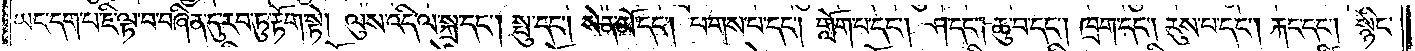ཡང་དག་པ་ཇི་ལྟ་བ་བཞིན་དུ་རབ་ཏུ་རྟོག་སྟེ། ལུས་འདི་ལ་སྐྲ་དང༌། སྤུ་དང༌། སེན་མོ་དང༌། པགས་པ་དང༌། གློག་པ་དང༌། ཤ་དང༌། ཆུ་བ་དང༌། ཁྲག་དང༌། རུས་པ་དང༌། རྐང་དང༌། སྙིང་
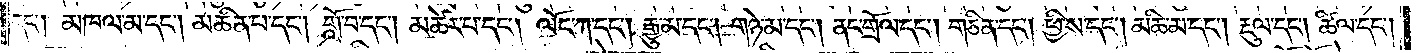དང༌། མཁལ་མ་དང༌། མཆིན་པ་དང༌། གློ་བ་དང༌། མཚེར་པ་དང༌། ལོང་ཀ་དང༌། རྒྱུ་མ་དང༌། གཉེ་མ་དང༌། ནང་གྲོལ་དང༌། གཅིན་དང༌། ཕྱི་ས་དང༌། མཆི་མ་དང༌། རྡུལ་དང༌། ཚིལ་དང༌།
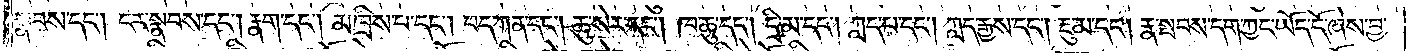སྣབས་དང༌། ངར་སྣབས་དང༌། རྣག་དང༌། མཁྲིས་པ་དང༌། བད་ཀན་དང༌། ཆུ་སེར་དང༌། ཁ་ཆུ་དང༌། དྲི་མ་དང༌། ཀླད་པ་དང༌། ཀླད་རྒྱས་དང༌། རྡུ་མ་དང༌། རྣ་སྤབས་དག་ཀྱང་ཡོད་དོ་ཞེས་བྱ་
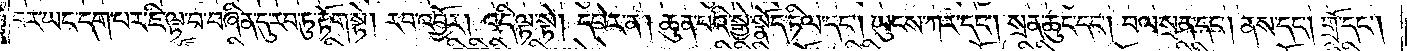བར་ཡང་དག་པར་ཇི་ལྟ་བ་བཞིན་དུ་རབ་ཏུ་རྟོག་སྟེ། རབ་འབྱོར། འདི་ལྟ་སྟེ། དཔེར་ན། ཆུན་པའི་སྒྱེ་སྣོད་ཏིལ་དང༌། ཡུངས་ཀར་དང་སྲན་ཆུང་དང༌། བལ་སྲན་དང༌། ནས་དང༌། གྲོ་དང༌།
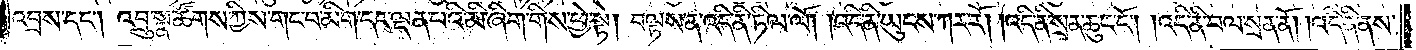འབྲས་དང༌། འབྲུ་སྣ་ཚོགས་ཀྱིས་གང་བ་མིག་དང་ལྡན་པའི་མི་ཞིག་གིས་ཕྱེ་སྟེ། བལྟས་ན་འདི་ནི་ཏིལ་ལོ། །འདི་ནི་ཡུངས་ཀར་རོ། །འདི་ནི་སྲན་ཆུང་ངོ༌། །འདི་ནི་བལ་སྲན་ནོ། །འདི་ནི་ནས་
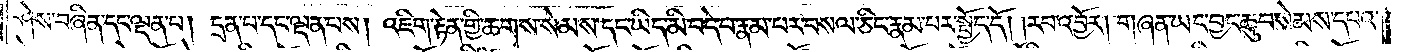ཤེས་བཞིན་དང་ལྡན་པ། དྲན་པ་དང་ལྡན་པས། འཇིག་རྟེན་གྱི་ཆགས་སེམས་དང་ཡིད་མི་བདེ་བ་རྣམ་པར་བསལ་ཅིང་རྣམ་པར་སྤྱོད་དོ། །རབ་འབྱོར། གཞན་ཡང་བྱང་ཆུབ་སེམས་དཔའ་
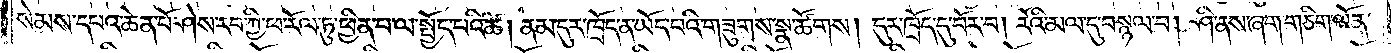སེམས་དཔའ་ཆེན་པོ་ཤེས་རབ་ཀྱི་ཕ་རོལ་ཏུ་ཕྱིན་པ་ལ་སྤྱོད་པའི་ཚེ། ནམ་དུར་ཁྲོད་ན་ཡོད་པའི་གཟུགས་སྣ་ཚོགས། དུར་ཁྲོད་དུ་བོར་བ། རོའི་མལ་དུ་བསྙལ་བ། ཤི་ནས་ཞག་གཅིག་ལོན་
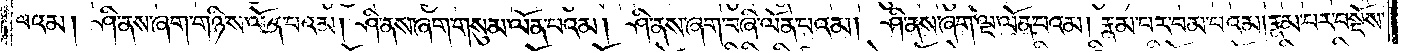པའམ། ཤི་ནས་ཞག་གཉིས་ལོན་པའམ། ཤི་ནས་ཞག་གསུམ་ལོན་པའམ། ཤི་ནས་ཞག་བཞི་ལོན་པའམ། ཤི་ནས་ཞག་ལྔ་ལོན་པའམ། རྣམ་པར་བམ་པའམ། རྣམ་པར་བསྔོས་
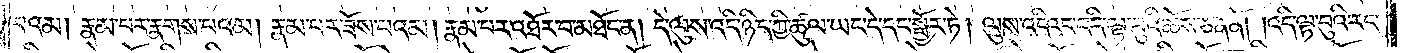པའམ། རྣམ་པར་རྣགས་པ་འམ། རྣམ་པར་ཟོས་པའམ། རྣམ་པར་འཐོར་བ་མཐོང་ན། དེ་ལུས་འདི་ཉིད་ཀྱི་ཚུལ་ཡང་དེ་དང་སྦྱོར་ཏེ། ལུས་འདིའང་འདི་ལྟ་བུའི་ཆོས་ཅན་ནོ། །འདི་ལྟ་བུའི་རང་
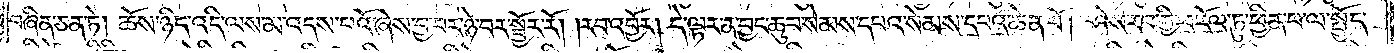བཞིན་ཅན་ཏེ། ཆོས་ཉིད་འདི་ལས་མ་འདས་པའོ་ཞེས་བྱ་བར་ཉེ་བར་སྦྱོར་རོ། །རབ་འབྱོར། དེ་ལྟར་ན་བྱང་ཆུབ་སེམས་དཔའ་སེམས་དཔའ་ཆེན་པོ། ཤེས་རབ་ཀྱི་ཕ་རོལ་ཏུ་ཕྱིན་པ་ལ་སྤྱོད་
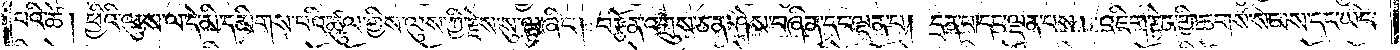པའི་ཚེ། ཕྱིའི་ལུས་ལ་དེ་མི་དམིགས་པའི་ཚུལ་གྱིས་ལུས་ཀྱི་རྗེས་སུ་ལྟ་ཞིང༌། བརྩོན་འགྲུས་ཅན་ཤེས་བཞིན་དང་ལྡན་པ། དྲན་པ་དང་ལྡན་པས། འཇིག་རྟེན་གྱི་ཆགས་སེམས་དང་ཡིད་
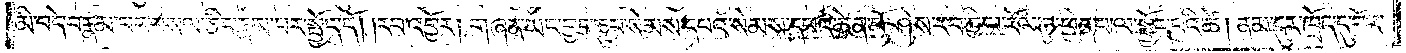མི་བདེ་བ་རྣམ་པར་བསལ་ཅིང་རྣམ་པར་སྤྱོད་དོ། །རབ་འབྱོར། གཞན་ཡང་བྱང་ཆུབ་སེམས་དཔའ་སེམས་དཔའ་ཆེན་པོ་ཤེས་རབ་ཀྱི་ཕ་རོལ་ཏུ་ཕྱིན་པ་ལ་སྤྱོད་པའི་ཚེ། ནམ་དུར་ཁྲོད་དུ་བོར་
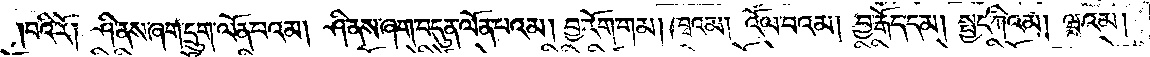བའི་རོ། ཤི་ནས་ཞག་དྲུག་ལོན་པའམ། ཤི་ནས་ཞག་བདུན་ལོན་པའམ། བྱ་རོག་གམ། ཁྭ་འམ། འོལ་བའམ། བྱ་རྒོད་དམ། སྤྱང་ཀིའམ། །ཝའམ་
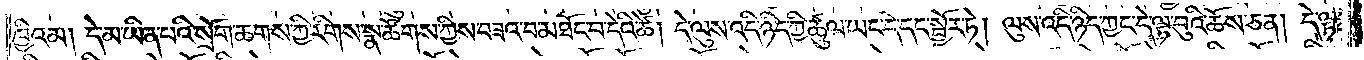ཁྱིའམ། དེ་མ་ཡིན་པའི་སྲོག་ཆགས་ཀྱི་རིགས་སྣ་ཚོགས་ཀྱིས་བཟའ་བ་མཐོང་བ་དེའི་ཚེ། དེ་ལུས་འདི་ཉིད་ཀྱི་ཚུལ་ཡང་དེ་དང་སྦྱོར་ཏེ། ལུས་འདི་ཉིད་ཀྱང་དེ་ལྟ་བུའི་ཆོས་ཅན། དེ་ལྟ་
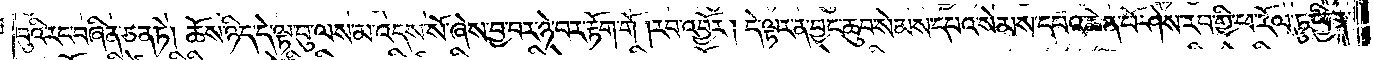བུའི་རང་བཞིན་ཅན་ཏེ། ཆོས་ཉིད་དེ་ལྟ་བུ་ལས་མ་འདས་སོ་ཞེས་བྱ་བར་ཉེ་བར་རྟོག་གོ །རབ་འབྱོར། དེ་ལྟར་ན་བྱང་ཆུབ་སེམས་དཔའ་སེམས་དཔའ་ཆེན་པོ་ཤེས་རབ་ཀྱི་ཕ་རོལ་ཏུ་ཕྱིན་
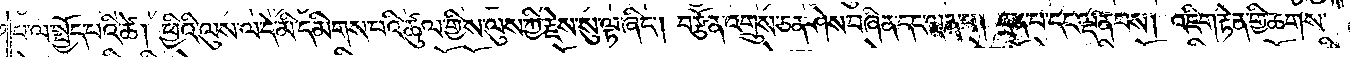པ་ལ་སྤྱོད་པའི་ཚེ། ཕྱིའི་ལུས་ལ་དེ་མི་དམིགས་པའི་ཚུལ་གྱིས་ལུས་ཀྱི་རྗེས་སུ་ལྟ་ཞིང༌། བརྩོན་འགྲུས་ཅན་ཤེས་བཞིན་དང་ལྡན་པ། དྲན་པ་དང་ལྡན་པས། འཇིག་རྟེན་གྱི་ཆགས་
